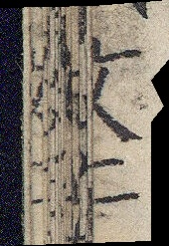文二
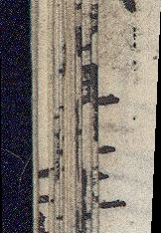十三
